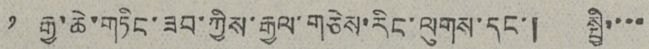༡ རྒྱ་ཆེ་གཏིང་ཟབ་ཀྱིས་རྒྱལ་གཅེས་རིང་ལུགས་དང་། སྤྱི་་་་
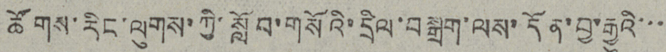ཚོགས་རིང་ལུགས་ཀྱི་སློབ་གསོའི་དྲིལ་བསྒྲག་ལས་དོན་བྱ་རྒྱུའི་་་
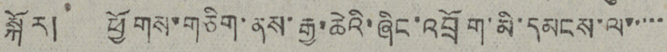སྐོར། ཕྱོགས་གཅིག་ནས་རྒྱ་ཆེའི་ཞིང་འབྲོག་མི་དམངས་ལ་་་་་
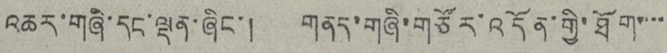འཆར་གཞི་དང་ལྡན་ཞིང་། གནད་གཞི་གཙོར་འདོན་གྱི་ཐོག་་་་
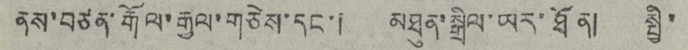ནས་བཙན་རྒོལ་རྒྱལ་གཅེས་དང་།  མཐུན་སྒྲིལ་ཡར་ཐོན།  སྤྱི་
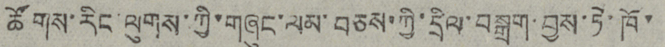ཚོགས་རིང་ལུགས་ཀྱི་གཞུང་ལམ་བཅས་ཀྱི་དྲིལ་བསྒྲག་བྱས་ཏེ་ཁོ་་
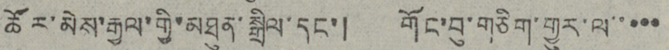ཚོར་མེས་རྒྱལ་གྱི་མཐུན་སྒྲིལ་དང་། གོང་བུ་གཅིག་གྱུར་ལ་་་་་
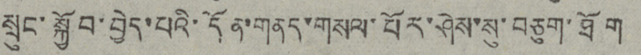སྲུང་སྐྱོབ་བྱེད་པའི་དོན་གནད་གསལ་པོར་ཤེས་སུ་བཅུག་ཐོག
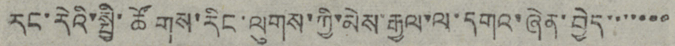རང་རེའི་སྤྱི་ཚོགས་རིང་ལུགས་ཀྱི་མེས་རྒྱལ་ལ་དགའ་ཞེན་བྱེད་་་་་་་
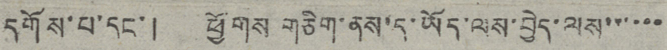དགོས་པ་དང་། ཕྱོགས གཅིག་ནས་ད་ཡོད་ལས་བྱེད་ལས་་་་་་
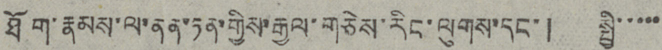ཐོག་རྣམས་ལ་ནན་ཏན་གྱིས་རྒྱལ་གཅེས་རིང་ལུགས་དང་། སྤྱི་་་་་་
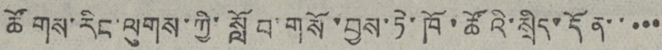ཚོགས་རིང་ལུགས་ཀྱི་སློབ་གསོ་བྱས་ཏེ་ཁོ་ཚོའི་སྲིད་དོན་་་་་
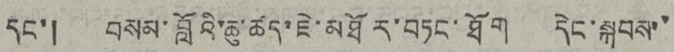དང་། བསམ་བློའི་ཆུ་ཚད་ཇེ་མཐོར་བཏང་ཐོག དེང་སྐབས་་
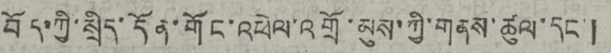བོད་ཀྱི་སྲིད་དོན་གོང་འཕེལ་འགྲོ་མུས་ཀྱི་གནས་ཚུལ་དང་།
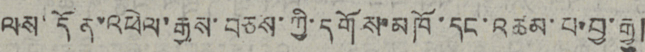ལས་དོན་འཕེལ་རྒྱས་བཅས་ཀྱི་དགོས་མཁོ་དང་འཚམ་པ་བྱ་རྒྱུ།
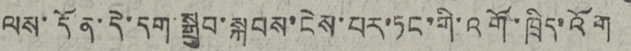ལས་དོན་དེ་དག་སྒྲུབ་སྐབས་ངེས་པར་ཏང་གི་འགོ་ཁྲིད་འོག
